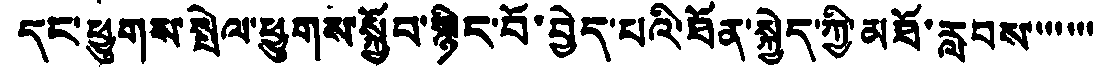དང་ཕྱུགས་སྤེལ་ཕྱུགས་སྐྱོབ་སྙིང་པོ་བྱེད་པའི་ཐོན་སྐྱེད་ཀྱི་མཐོ་རླབས་་་་་་་
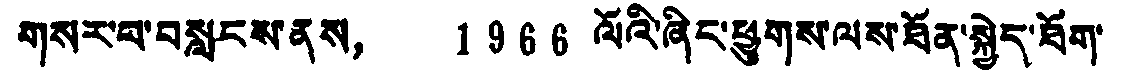གསར་བ་བསླངས་ནས， 1966 ལོའི་ཞིང་ཕྱུགས་ལས་ཐོན་སྐྱེད་ཐོག་
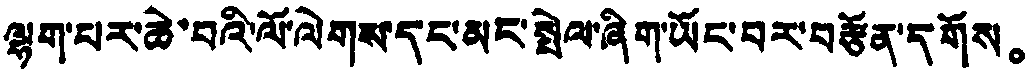ལྷག་པར་ཆེ་བའི་ལོ་ལེགས་དང་མང་སྤེལ་ཞིག་ཡོང་བར་བརྩོན་དགོས。
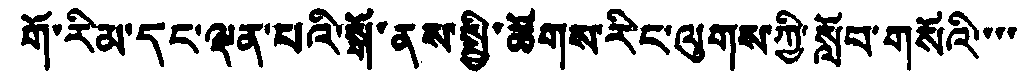གོ་རིམ་དང་ལྡན་པའི་སྒོ་ནས་སྤྱི་ཚོགས་རིང་ལུགས་ཀྱི་སློབ་གསོའི་་་་
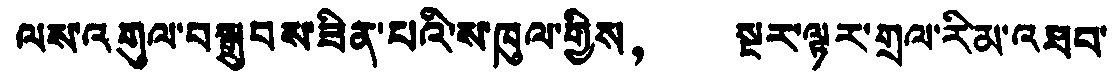ལས་འགུལ་བསྒྲུབས་ཟིན་པའི་ས་ཁུལ་གྱིས， སྔར་ལྟར་གྲལ་རིམ་འཐབ་
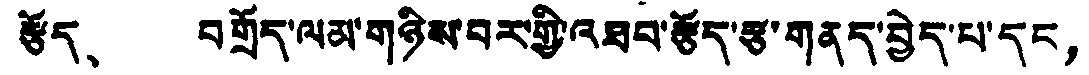རྩོད、 བགྲོད་ལམ་གཉིས་བར་གྱི་འཐབ་རྩོད་རྩ་གནད་བྱེད་པ་དང，
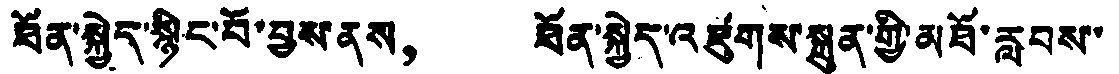ཐོན་སྐྱེད་སྙིང་པོ་བྱས་ནས， ཐོན་སྐྱེད་འཛུགས་སྐྲུན་གྱི་མཐོ་རླབས་
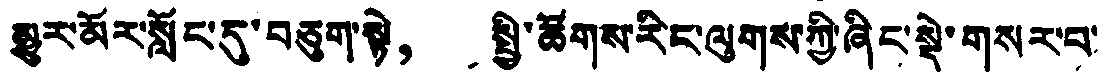མྱུར་མོར་སློང་དུ་བཅུག་སྟེ， སྤྱི་ཚོགས་རིང་ལུགས་ཀྱི་ཞིང་སྡེ་གསར་བ་
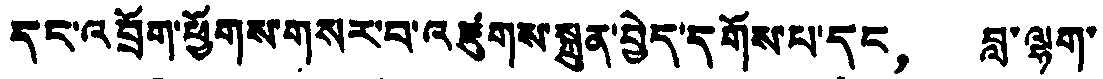དང་འབྲོག་ཕྱོགས་གསར་བ་འཛུགས་སྐྲུན་བྱེད་དགོས་པ་དང， བླ་ལྷག་
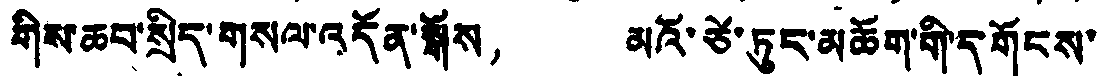གིས་ཆབ་སྲིད་གསལ་འདོན་སྒོས， མའོ་ཙེ་ཏུང་མཆོག་གི་དགོངས་
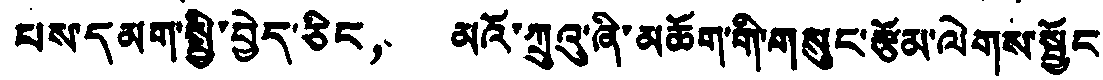པས་དམག་སྤྱི་བྱེད་ཅིང， མའོ་ཀྲུའུ་ཞི་མཆོག་གི་གསུང་རྩོམ་ལེགས་སྦྱོང
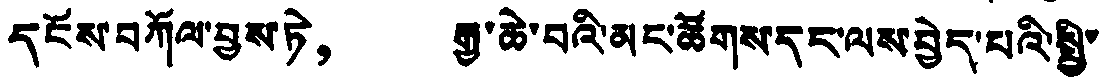དངོས་བཀོལ་བྱས་ཏེ， རྒྱ་ཆེ་བའི་མང་ཚོགས་དང་ལས་བྱེད་པའི་སྤྱི་
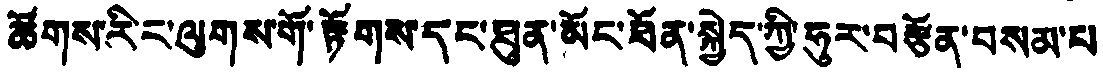ཚོགས་རིང་ལུགས་གོ་རྟོགས་དང་ཐུན་མོང་ཐོན་སྐྱེད་ཀྱི་ཧུར་བརྩོན་བསམ་པ
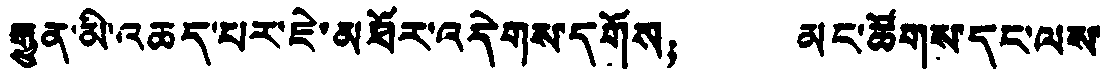རྒྱུན་མི་འཆད་པར་ཇེ་མཐོར་འདེགས་དགོས； མང་ཚོགས་དང་ལས་
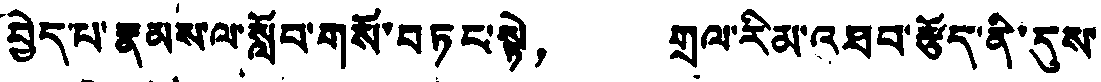བྱེད་པ་རྣམས་ལ་སློབ་གསོ་བཏང་སྟེ， གྲལ་རིམ་འཐབ་རྩོད་ནི་དུས་
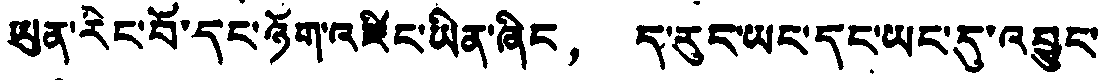ཡུན་རིང་པོ་དང་ཉོག་འཛིང་ཡིན་ཞིང， ད་རུང་ཡང་དང་ཡང་དུ་འབྱུང་
